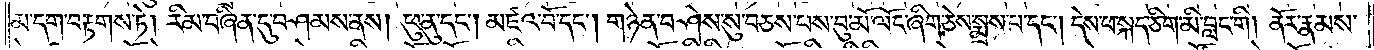མ་དག་བརྟགས་ཏེ། རིམ་བཞིན་དུ་བཤམས་ནས། ཕུ་ནུ་དང༌། མཛའ་བོ་དང༌། གཉེན་བཤེས་སུ་བཅས་པས་བུ་མོ་ལོང་ཞིག་ཅེས་སྨྲས་པ་དང༌། དེས་པ་སྐད་ཅིག་མི་བླང་གི། ནོར་རྣམས་
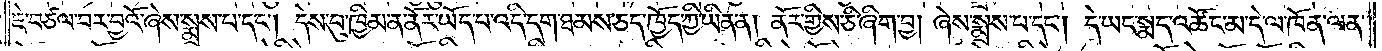ཇེ་བཙལ་བར་བྱའོ་ཞེས་སྨྲས་པ་དང༌། དེས་བུ་ཁྱིམ་ན་ནོར་ཡོད་པ་འདི་དག་ཐམས་ཅད་ཁྱོད་ཀྱི་ཡིན་ན། ནོར་གྱིས་ཅི་ཞིག་བྱ། ཞེས་སྨྲས་པ་དང༌། དེ་ཡང་སྨད་འཚོང་མ་དེ་ལ་ཁོན་ལན་
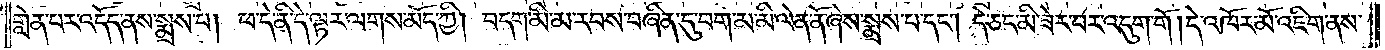གློན་པར་འདོད་ནས་སྨྲས་པ། ཕ་དེ་ནི་དེ་ལྟར་ལགས་མོད་ཀྱི། བདག་མི་མ་རབས་བཞིན་དུ་བག་མ་མི་ལེན་ནོ་ཞེས་སྨྲས་པ་དང༌། དེ་ཅང་མི་ཟེར་བར་འདུག་གོ། །དེ་འཁོར་མོ་འཇིག་ནས་
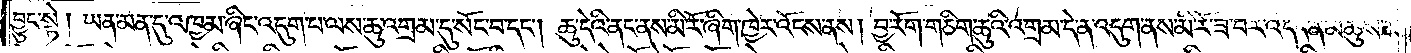བྱུང་སྟེ། ཡན་མན་དུ་འཁྱམ་ཞིང་འདུག་པ་ལས་ཆུ་འགྲམ་དུ་སོང་བ་དང༌། ཆུ་དེའི་ནང་ནས་མི་རོ་ཞིག་ཁྱེར་འོངས་ནས། བྱ་རོག་གཅིག་ཆུའི་འགྲམ་དེ་ན་འདུག་ནས་མི་རོ་ཟ་བར་འདོད་ན་མཆུས་མ་
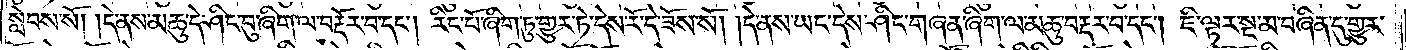སླེབས་སོ། །དེ་ནས་མཆུ་དེ་ཤིང་བུ་ཞིག་ལ་བརྡོར་བ་དང༌། རིང་པོ་ཞིག་ཏུ་གྱུར་ཏེ་དེས་རོ་དེ་ཟོས་སོ། །དེ་ནས་ཡང་དེས་ཤིང་གཞན་ཞིག་ལ་མཆུ་བརྡར་བ་དང༌། ཇི་ལྟར་སྔ་མ་བཞིན་དུ་གྱུར་
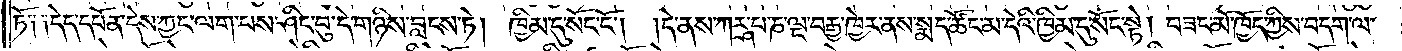ཏོ༑ ༑དེད་དཔོན་དེས་ཀྱང་ལག་པས་ཤིང་བུ་དེ་གཉིས་བླངས་ཏེ། ཁྱིམ་དུ་སོང་ངོ༌། །དེ་ནས་ཀཪྴ་པ་ཎ་ལྔ་བརྒྱ་ཁྱེར་ནས་སྨད་ཚོང་མ་དེའི་ཁྱིམ་དུ་སོང་སྟེ། བཟང་མོ་ཁྱོད་ཀྱིས་བདག་ལ་
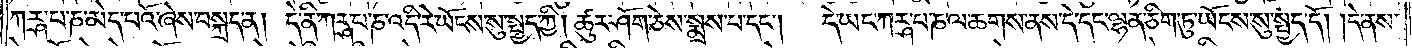ཀཪྴ་པ་ཎ་མེད་པའོ་ཞེས་བསྐྲད་ན། དེ་ནི་ཀཪྴ་པ་ཎ་འདི་རེ་ཡོངས་སུ་སྤྱད་ཀྱི། ཚུར་ཤོག་ཅེས་སྨྲས་པ་དང༌། དེ་ཡང་ཀཪྴ་པ་ཎ་ལ་ཆགས་ནས་དེ་དང་ལྷན་ཅིག་ཏུ་ཡོངས་སུ་སྤྱད་དོ། །དེ་ནས་
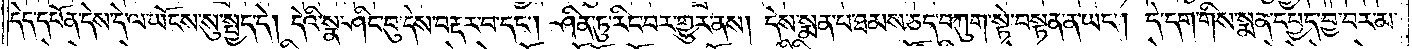དེད་དཔོན་དེས་དེ་ལ་ཡོངས་སུ་སྤྱད་དེ། དེའི་སྣ་ཤིང་བུ་དེས་བརྡར་བ་དང༌། ཤིན་ཏུ་རིང་བར་གྱུར་ནས། དེས་སྨན་པ་ཐམས་ཅད་བཀུག་སྟེ་བསྟན་ན་ཡང༌། དེ་དག་གིས་སྨན་དཔྱད་བྱ་བར་མ་
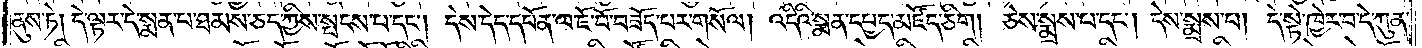ནུས་ཏེ། དེ་ལྟར་དེ་སྨན་པ་ཐམས་ཅད་ཀྱིས་སྤངས་པ་དང༌། དེས་དེད་དཔོན་ལ་ཇོ་བོ་བཟོད་པར་གསོལ། འདིའི་སྨན་དཔྱད་མཛོད་ཅིག། ཅེས་སྨྲས་པ་དང༌། དེས་སྨྲས་པ། དེ་སྟེ་ཁྱེར་བ་དེ་ཀུན་
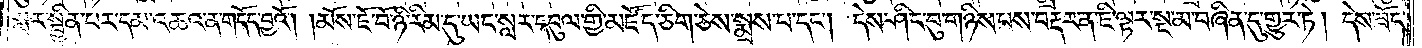སླར་སྦྱིན་པར་དམ་འཆའ་ན་གདོད་བྱའོ། །མོས་ཇོ་བོ་ཉི་རིམ་དུ་ཡང་སླར་དབུལ་གྱི་མཛོད་ཅིག་ཅེས་སྨྲས་པ་དང༌། དེས་ཤིང་བུ་གཉིས་པས་བརྡར་ན་ཇི་ལྟར་སྔ་མ་བཞིན་དུ་གྱུར་ཏེ། དེས་ཟོང་
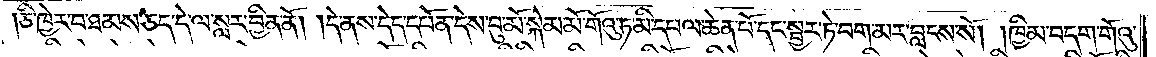།ཅི་ཁྱེར་བ་ཐམས་ཅད་དེ་ལ་སླར་བྱིན་ནོ། །དེ་ནས་དེད་དཔོན་དེས་བུ་མོ་སྐེམ་མོ་གོའུ་ཏ་མི་དཔལ་ཆེན་པོ་དང་སྦྱར་ཏེ་བག་མར་བླངས་སོ། །ཁྱིམ་བདག་གོའུ་
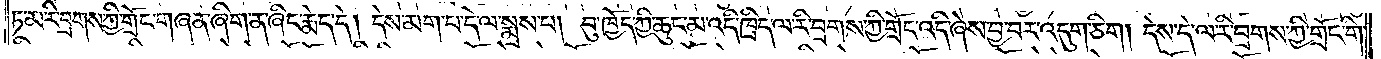ཏ་མ་རི་བྲགས་ཀྱི་གྲོང་གཞན་ཞིག་ན་ཞིང་རྨེད་དེ། དེས་མག་པ་དེ་ལ་སྨྲས་པ། བུ་ཁྱོད་ཀྱི་ཆུང་མ་འདི་ཁྲིད་ལ་རི་བྲགས་ཀྱི་གྲོང་འདི་ཞེས་བྱ་བར་འདུག་ཅིག། དེས་དེ་ལ་རི་བྲགས་ཀྱི་གྲོང་གི་
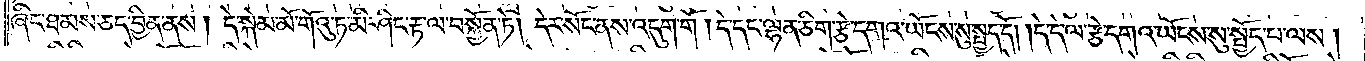ཞིང་ཐམས་ཅད་བྱིན་ནས། དེ་སྐེམ་མོ་གོའུ་ཏ་མི་ཤིང་རྟ་ལ་བསྐྱོན་ཏེ། དེར་སོང་ནས་འདུག་གོ། དེ་དང་ལྷན་ཅིག་རྩེ་དགའ་ཡོངས་སུ་སྤྱད་དོ། །དེ་དེ་ལ་རྩེ་དགའ་ཡོངས་སུ་སྤྱོད་པ་ལས།
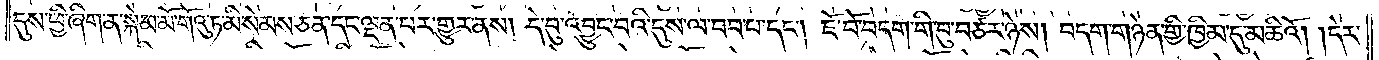དུས་ཕྱི་ཞིག་ན་སྐེམ་མོ་གོའུ་ཏ་མི་སེམས་ཅན་དང་ལྡན་པར་གྱུར་ནས། དེ་བུ་འབྱུང་བའི་དུས་ལ་བབ་པ་དང༌། ཇོ་བོ་བདག་གི་བུ་བཙར་ཉེས། བདག་གཉེན་གྱི་ཁྱིམ་དུ་མཆིའོ། །དེར་
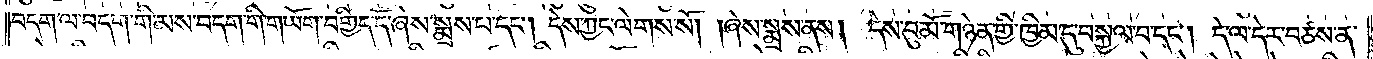བདག་ལ་བདག་གི་མས་བདག་གི་གཡོག་བགྱིད་དོ་ཞེས་སྨྲས་པ་དང༌། དེས་ཀྱང་ལེགས་སོ། །ཞེས་སྨྲས་ནས། དེས་བུ་མོ་གཉེན་གྱི་ཁྱིམ་དུ་བསྐྱལ་བ་དང༌། དེ་ལ་དེར་བཙས་ན་
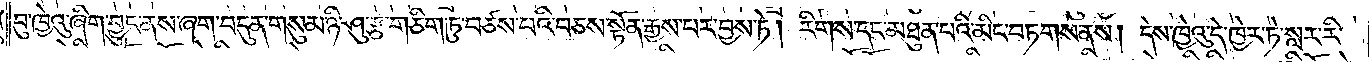བུ་ཁྱེའུ་ཞིག་བྱུང་ནས་ཞག་བདུན་གསུམ་ཉི་ཤུ་རྩ་གཅིག་ཏུ་བཙས་པའི་བཅས་སྟོན་རྒྱས་པར་བྱས་ཏེ། རིགས་དང་མཐུན་པའི་མིང་བཏགས་ནས། དེས་ཁྱེའུ་དེ་ཁྱེར་ཏེ་སླར་རི་
